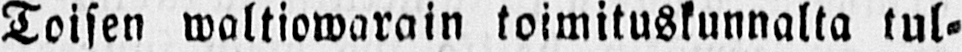Toisen waltiowarain toimituskunnalta tul-
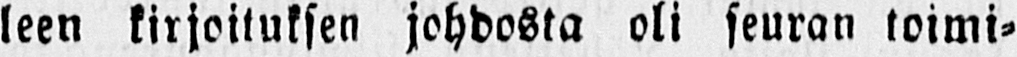leen kirjoituksen johdosta oli seuran toimi-
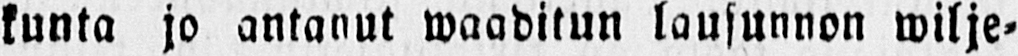kunta jo antanut waaditun lausunnon wilje-
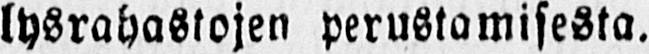lysrahastojen perustamisesta.
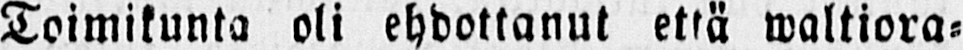Toimikunta oli ehdottanut että waltiora-
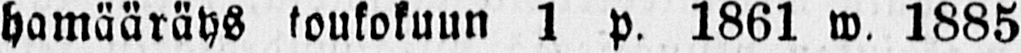hamääräys toukokuun 1 p. 1861 w. 1885
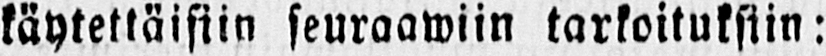käytettäisiin seuraawiin tarkoituksiin:
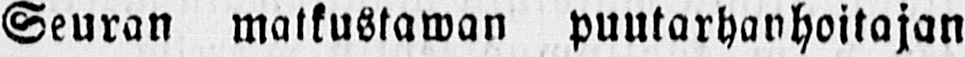Seuran matkustawan puutarhanhoitajan
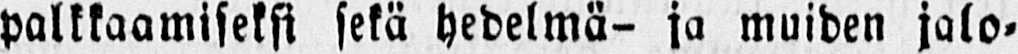palkkaamiseksi sekä hedelmä- ja muiden jalo-
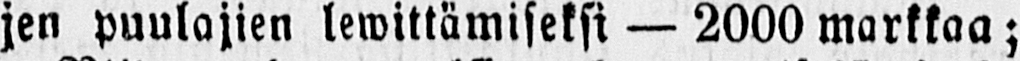jen puulajien lewittämiseksi — 2000 markkaa;
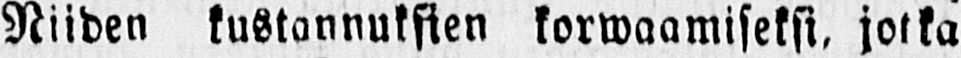Niiden kustannuksien korwaamiseksi, jotka
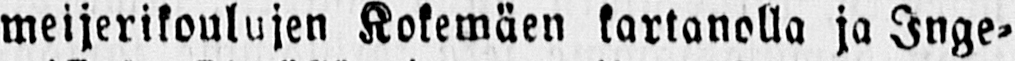meijerikoulujen Kokemäen kartanolla ja Inge-
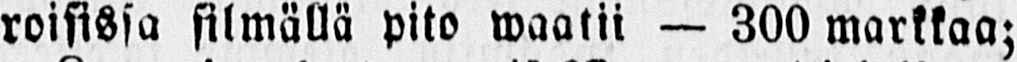roisissa silmällä pito waatii — 300 markkaa;
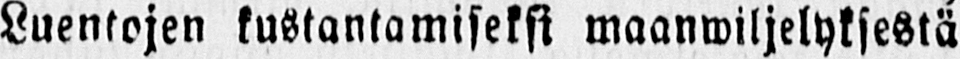Luentojen kustantamiseksi maanwiljelyksestä
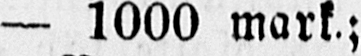— 1000 mark.;
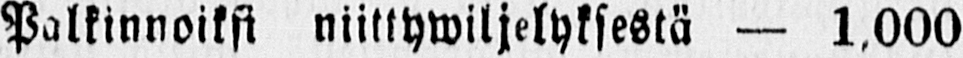Palkinnoiksi niittywiljelyksestä — 1,000
